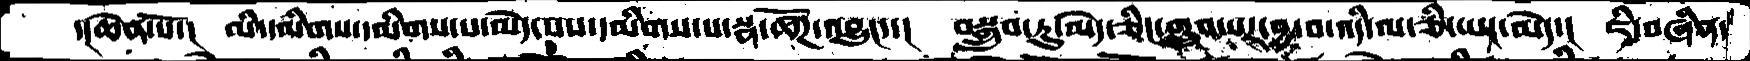་།ཆེན་པོ་།  མི་དམིགས་དམིགས་པ་མེད་པས་དམིགས་པ་སྣ་ཚོཌ་འབྱུང་་།  བསྒྲུབ་ཏུ་མེད་ཅིང་གྲུབ་པར་བྱ་བ་འདི་ལ་ཅི་ཡང་མེད་།  ཇི་བཞིན་
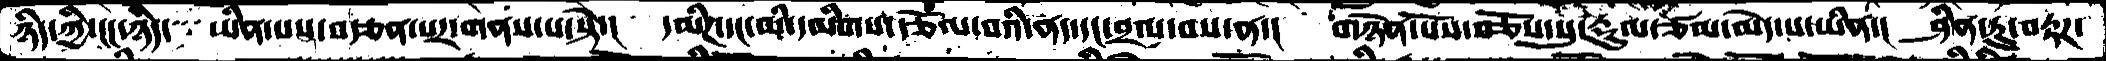ཉིད་ཀྱི་ངང་ཉིད་ ཡིན་༷པས་བརྩན་པར་གནས་པ་སྟེ་། དམིཌ་དང་མི་དམིགས་དཙོལ་བའི་ནད་དང་བྲལ་བས་ན་། གཉེན་པོས་བཅོས་སུ་རྡུལ་ཙམ་མེད་པ་ཡིན་། ཤིན་ཏུ་བརྟཌ་
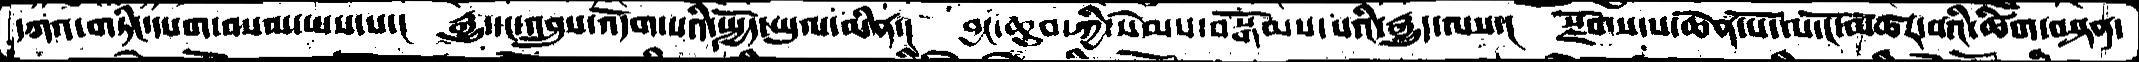དཀའ་གཏིང་དཔག་བསམ་ཡས་པ་།  རྒྱུ་དང་འབྲུས་འདོག་པའི་སྤྱོད་ཡུལ་མིན་།  བྱང་ཆུབ་ཀྱི་སེམས་བསྒོམས་པའི་རྒྱུད་ལས་།  སྫོགས་པ་ཆེན་པོ་ལ་ངོ་མཚར་བའི་ཚིག་བསྟན་
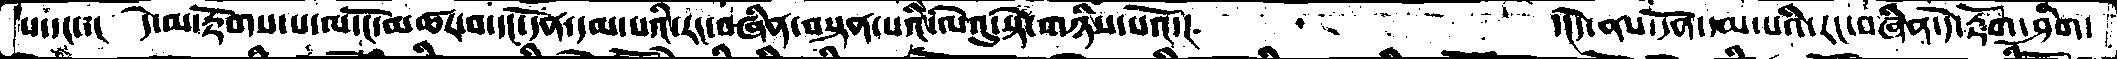པ་དང་།  དེ་མ་རྟོགས་པ་ལ་ངོ་མཚར་བ་དང་དོན་དམ་པའི་རང་བཞིན་བསྟན་པའི་ལེའུ་སྟེ་གཉིས་པའོ་།          ་།དེ་ནས་དོན་དམ་པའི་རང་བཞིན་དེ་རྟོག་ཤིག་
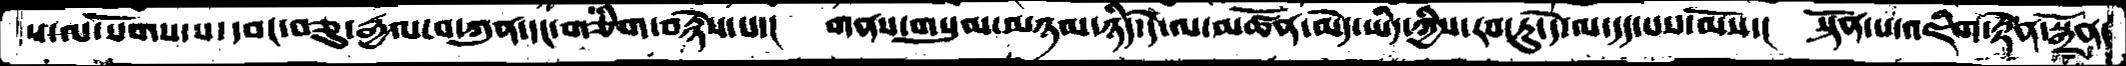པ་ལ་སོགས་པ་དབང་བཅུ་རྒྱལ་བ་ཀུན་དང་གཅིག་བརྙེས་པ་།  གནས་གསུམ་མཉམ་ཉིད་དེ་ལ་མཚོན་མེད་ཡིད་ཀྱིས་རབ་ཏུ་དེ་ལ་དད་པས་མོས་།  སྟོན་པ་འཇིག་རྟེན་སྒྲོན་
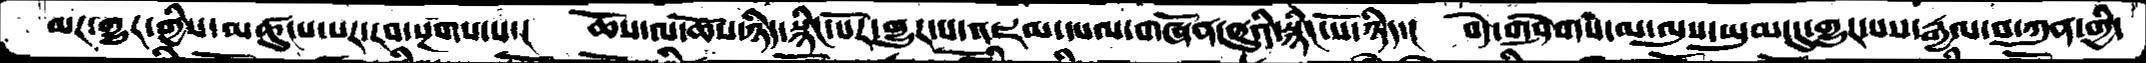མར་གྱུར་གྱིས་མཚུངས་པར་རབ་སྔགས་པ་།  ཆོས་ལ་ཆོས་ཉིད་སྙིང་པོར་གྱུར་པ་འཇམ་དཔལ་གཞོན་ནུའི་སྙིང་པོ་ཉིད་།  བདེ་གཤེགས་མ་ལུས་ཡུམ་དུ་གྱུར་པས་རྒྱལ་བ་ཀུན་གྱི་
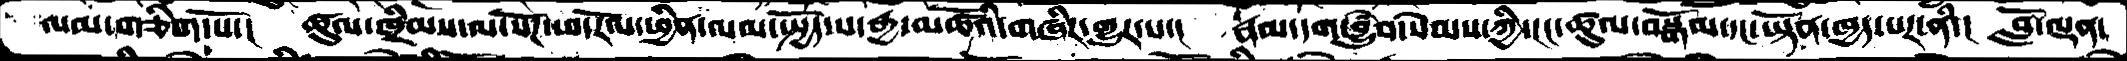ལམ་གཅིག་པོ་།  ཚུལ་ཁྲིམས་ལ་སོཌ་ཕ་རོལ་ཕྱིན་ལམ་སྤྱོད་པ་རྒྱ་མཚོའི་གཞིར་གྱུར་པ་།  རྣམ་དག་བྱུཾབ་སེམས་ཀྱི་ངང་ཚུལ་བསྒོམ་དང་ཡྟོན་ཁྱད་པར་ནི་།  བློ་ལྡན་
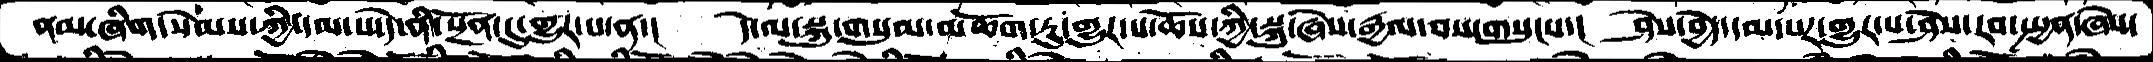ནམ་ཞིག་སེམས་ཀྱི་དམ་པ་དེ་ནི་སྔོན་དུ་གྱུར་པ་ན་།  དེ་ལ་སྐུ་གསུམ་མཆོག་ཏུ་གྱུར་པ་ཆོས་ཀྱི་སྐུ་ཞེས་རྒྱལ་བས་གསུངས་།  ཤེས་བྱེད་དམ་པར་གྱུར་པ་ཤེས་རབ་སྤྱན་ཞེས་
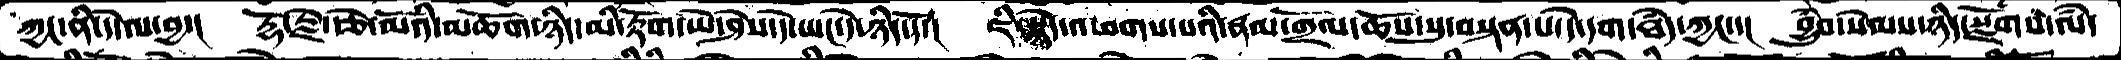ཀྱང་ནི་དེ་ལ་བྱ་།  རྡོ་རྗེ་རྩེ་མོའི་མཆོག་ཉིད་མི་རྟོག་ཡེ་ཤེས་དེ་ཡང་དེ་ཉིད་དོ་།  ཇི་སྙེད་འཕགས་པའི་རྣམ་གྲོལ་ཆོས་སུ་བསྟན་པ་དེ་དག་ཐཾད་ཀྱང་་།  བྱུཾབ་སེམས་ཉིད་སྫོགས་ལཾ་
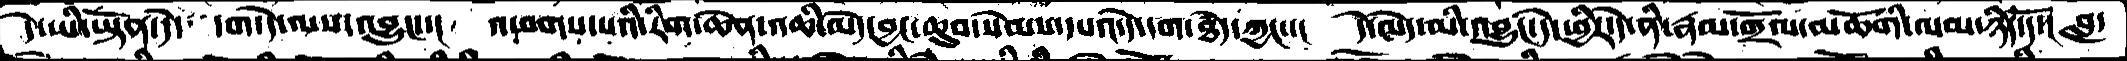དེ་ཡི་ཡྟོན་དེ་  དག་དེ་ལས་འབྱུང་་།  འཕགས་པའི་རིན་ཆེན་འཆི་མེད་བྱང་ཆུབ་སེམས་དཔའ་དེ་དག་ཐཾད་ཀྱང་་།  དེ་མེད་མི་འབྱུང་དེ་ཕྱིར་དེ་ནི་རྣམ་གྲོལ་མཆོགི་ལམ་ཉིད་དོ་།  བླ་
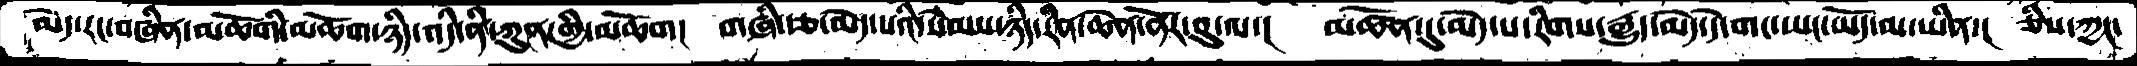མེད་རང་བཞིན་མཆོགི་མཆོག་ཉིད་འདི་ནི་ཀུན་གྱི་མཆོག།  གཞི་རྩ་མེད་པའི་སེམས་ཉིད་རིན་ཆེན་ནོར་བུ་ལ་།  མཚོན་དུ་མེད་པ་རིགས་རྒྱུད་མེད་དེ་གང་ཡང་ཡོད་མ་ཡིན་།  ཅིས་ཀྱང་
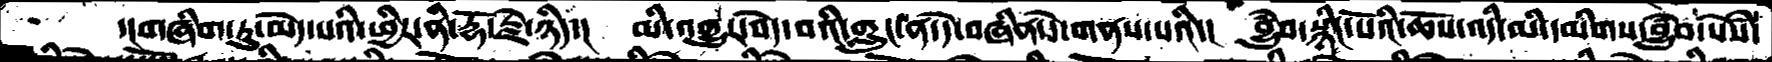་།གཞིག་་ཏུ་མེད་པའི་ཕྱིར་ནི་རྡོ་རྗེ་ཉིད་།  མི་འགྱུར་བདེ་བའི་གླུང་ན་དེ་བཞིན་དེ་གནས་པའི་།  བྱུཾབ་སྙིང་པོའི་ཆོས་འདི་མི་དམིགས་བྱུཾབ་སེསཾ་
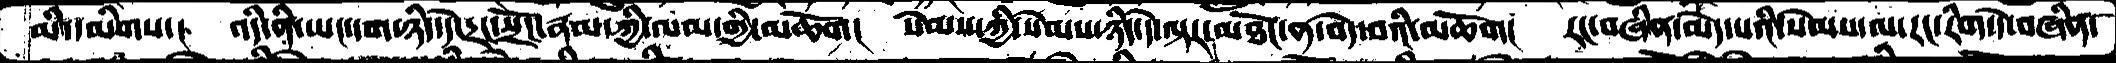མི་དམིགས་།  འདི་ནི་ཡང་དག་ཉིད་དེ་དྲང་སྲོང་རྣམ་ཀྱི་ལམ་གྱི་མཆོག།  སེམས་ཀྱི་སེམས་ཉིད་དེ་ལྟར་མཐོང་ན་བདེ་བའི་མཆོག།  རང་བཞིན་མེད་པའི་སེམས་ལ་རང་རིག་དེ་བཞིན་
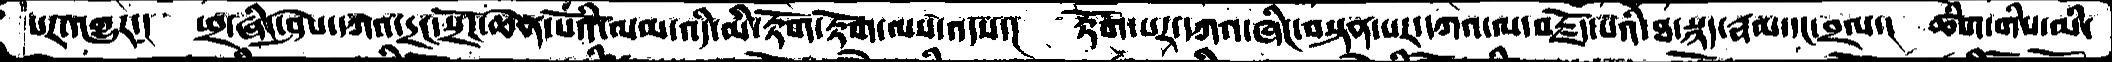པར་འགྱུར་།  ཕྲ་ཞིང་ཤེས་དཀའ་དྲང་སྲོང་ཆེན་པོའི་ལམ་འདི་མི་རྟོག་རྟོག་ལས་འདས་།  རྟོག་པར་དཀའ་ཞིང་བསྟན་པར་དཀའ་ལ་བརྗོད་པའི་ཐ་སྙད་རྣམ་དང་བྲལ་། ཚིག་གིས་མི་
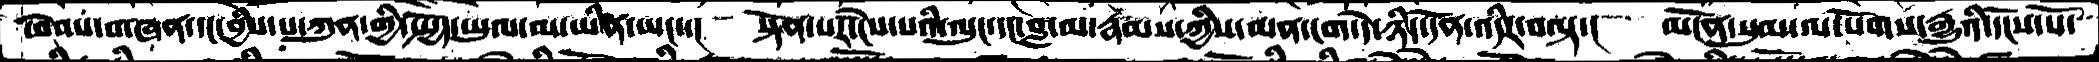ཕེབས་གཞན་དང་བྱིས་པ་ཀུན་གྱི་སྤྱོད་ཡུལ་མ་་ཡིན་་ཡང་་།  སྟོན་པར་ངེས་པའི་ལུང་དང་བླ་མ་རྣམས་ཀྱིས་མན་ངག་དེ་ཉིད་དོན་འདིར་བལྟ་།  མངོན་སུམ་ལ་སོགས་རྒྱུའི་དངོས་པོ་
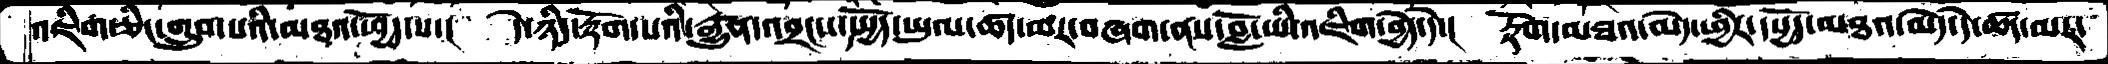འཇིག་ཅིང་གྲུབ་པའི་མཐའ་ཕྱོད་པ་།  དེ་ཉིད་རྟོག་པའི་རྒྱུན་འབྲངས་སྤྱོད་་ཡུལ་ཚད་མར་བཞག་ནས་བློ་ཡི་འཇིག་བྱེད་དེ་།  རྟོག་མཐའ་མེད་ཕྱིར་དཔྱོད་མཐའ་མེད་དེ་ཚད་མར་
